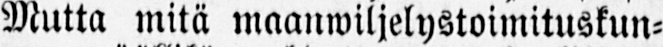Mutta mitä maanwiljelystoimituskun-
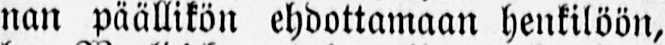nan päällikön ehdottamaan henkilöön,
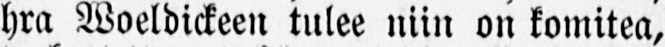hra Woeldickeen tulee niin on komitea,
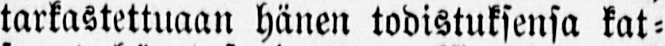tarkastettuaan hänen todistuksensa kat-
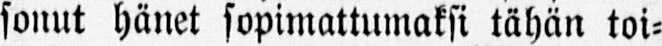sonut hänet sopimattumaksi tähän toi-
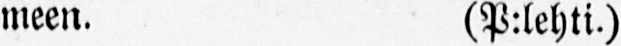meen. (P:lehti.)
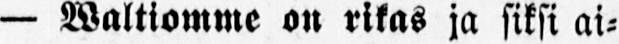— Waltiomme on rikas ja siksi ai-
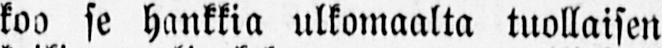koa se hankkia ulkomaalta tuollaisen
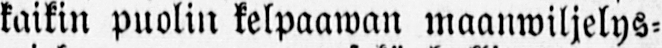kaikin puolin kelpaawan maanwiljelys-
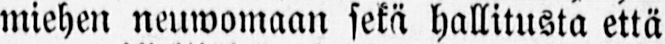miehen neuwomaan sekä hallitusta että
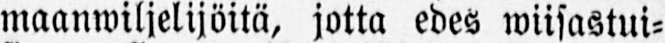maanwiljelijöitä, jotta edes wiisastui-
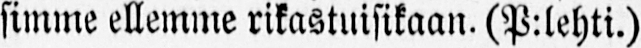simme ellemme rikastuisikaan. (P:lehti.)
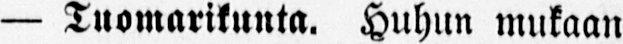— Tuomarikunta. Huhun mukaan
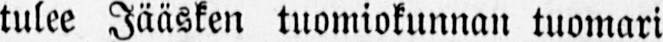tulee Jääsken tuomiokunnan tuomari
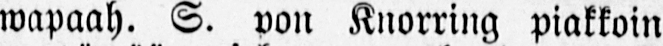wapaah. S. von Knorring piakkoin
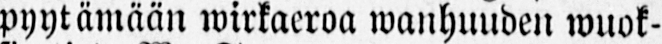pyytämään wirkaeroa wanhuuden wuok-
